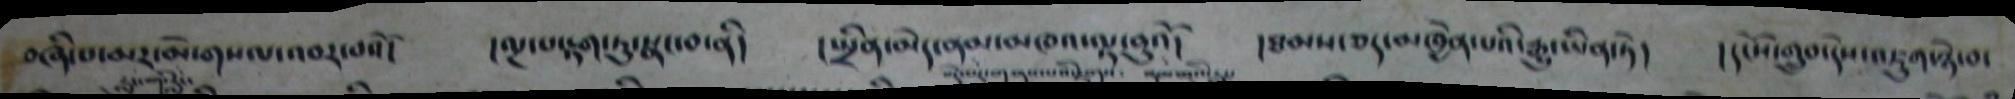བཞི་པ་མར་མེ་གསལ་འབར་པའོ།    །ལྔ་པ་རྟག་ཏུ་སྣང་བ་ནི།    ། སྤྱིན་མེད་ནམ་མཁའ་ལྟ་བུའོ།   ། ཐམས་ཅད་མཁྱེན་པའི་རྒྱུ་ཡིན་ཏེ།   ། དངོས་གྲུབ་དེས་འཇུག་ཉེ་བ་
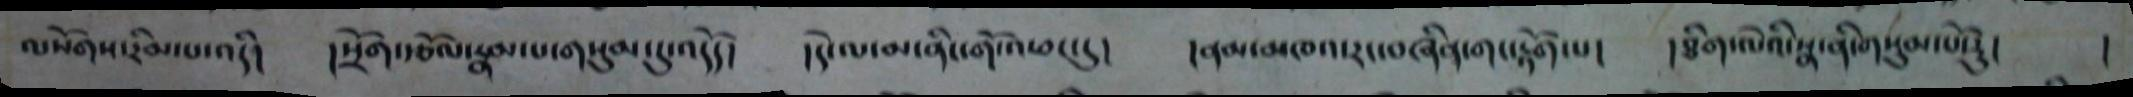ལསོགས་རིམ་པ་འདི། །སྲོག་རྩོལ་རྣམ་པ་གསུམ་དུ་འདོད། །དེ་ལ་མ་ནིང་གོ་འཕང་དུ། །ནམ་མཁའ་རང་བཞིན་གང་རྟོག་པ། །ཐིག་ལེའི་སྣ་ནི་གསུམ་པོ་རུ། །
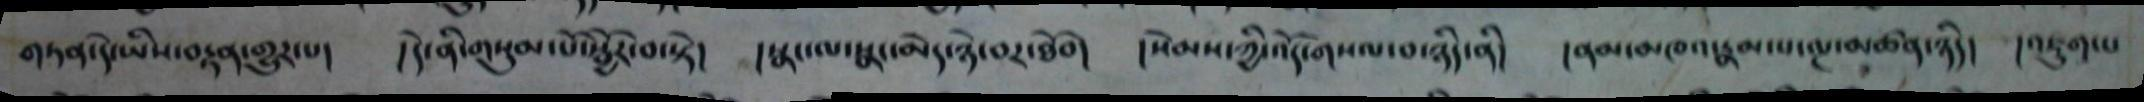གཏན་དེ་ཡིས་བརྟན་གྱུར་པ། །དེ་ནི་གསུམ་པོ་སྦྱོར་བ་སྟེ། །སྣང་ལ་སྣང་མེད་ཉེ་བར་ཐོབ། །སེམས་ཀྱི་འོད་གསལ་བ་ཉིད་ནི། །ནམ་མཁའ་རྣམ་པ་ལྔ་མཚན་ཉིད། །འཇུག་པ
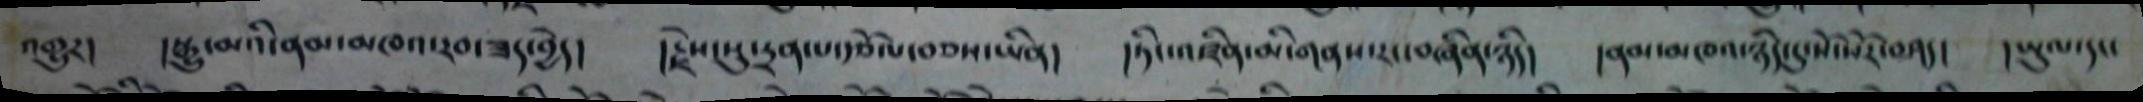འགྱུར། །སྒྱུ་མའི་ནམ་མཁའ་རབ་ཟད་བྱེད། །རྗེས་སུ་དྲན་པ་རྩོལ་བཅས་ཡིན། །ཏིང་འཛིན་མི་གནས་རང་བཞིན་ཉིད། །ནམ་མཁའ་ཉིད་དུ་སོ་སོར་བཤད། །ཡུལ་དང་
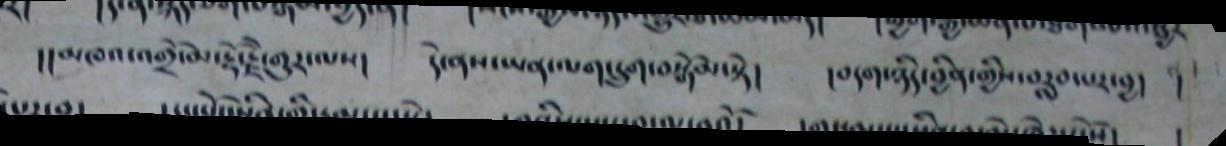།།  མཁཌྷ་འགྲོ་མ་རྡོ་རྗེ་གུར་ལས།    དེ་ནས་ཡན་ལག་དྲུག་བསྒོམ་སྟེ།  །  བདག་ཉིད་བྱིན་གྱིས་བརླབ་པར་བྱ།  །
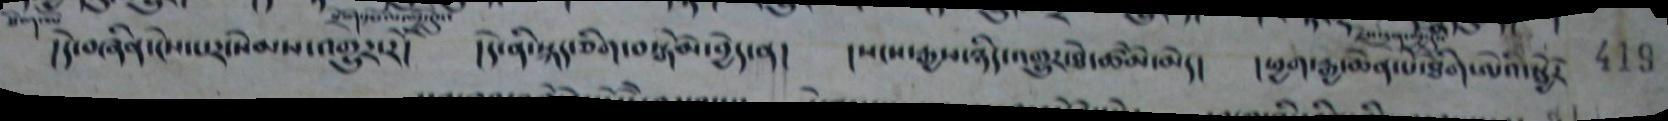།དེ་བཞིན་ངེས་པར་སེམས་འགྱུར་རོ།   ། དེ་ནི་སྐད་ཅིག་བསྒོམ་བྱེད་ན།  །  སངས་རྒྱས་ཉིད་འགྱུར་ཐེ་ཚོམ་མེད།  ། ཕྱག་རྒྱ་ཆེན་པོ་ཐིག་ལེའི་སྦྱོར
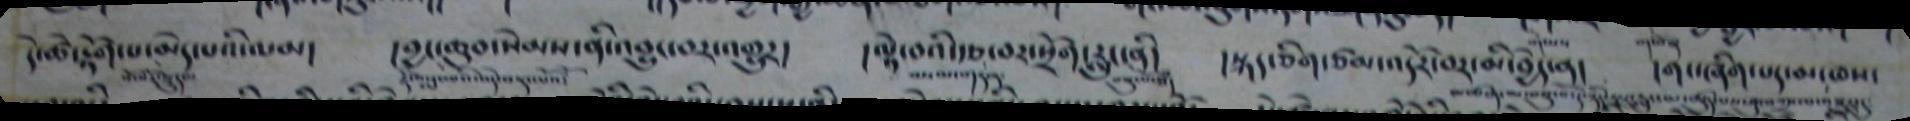དེ་ཞི་རྟོག་པ་མེད་པའི་ལམ།     ། བྱང་ཆུབ་སེམས་ནི་འབྱུང་བར་འགྱུར།   ། ལྟེ་བའི་རྩ་བར་སྲོག་རླུང་ནི།    ། སྐད་ཅིག་ཙམ་འདོར་བར་མི་བྱེད་ན།   ། གང་ཞིག་པད་མ་ཁས་
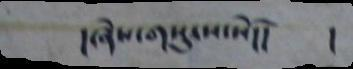།ཞེས་གསུངས་སོ།། །
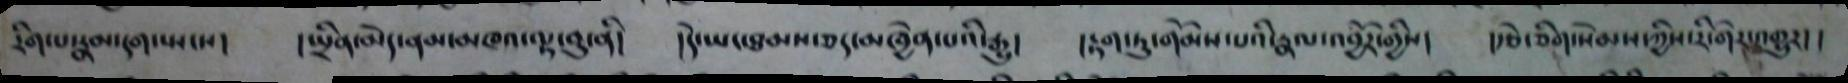རིག་པ་རྣམ་དག་སྤངས། །སྤྲིན་མེད་ནམ་མཁའ་ལྟ་བུ་ནི། །དེ་ཡང་ཐམས་ཅད་མཁྱེན་པའི་རྒྱུ། །རྟག་ཏུ་གོམས་པའི་རྣལ་འབྱོར་གྱིས། །རྩེ་ཅིག་སེམས་ཀྱིས་རི་གེར་འགྱུར།།
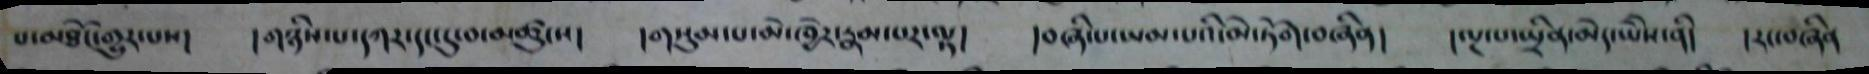པ་མཐོང་གྱུར་པས། །གཉིས་པ་དཀར་དང་དུ་བ་མཚུངས། །གསུམ་པ་མེ་ཁྱེར་རྣམ་པར་ལྟ། །བཞི་པ་ཡམ་པའི་མེ་ཏོག་བཞིན། །ལྔ་པ་སྤྲིན་མེད་ཡཻས་ནི། །རང་བཞིན
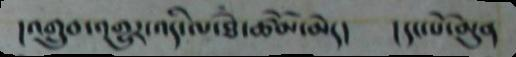།འགྲུབ་འགྱུར་འདི་ལ་ཐེ་ཚོམ་མེད། །དང་པོ་མུན
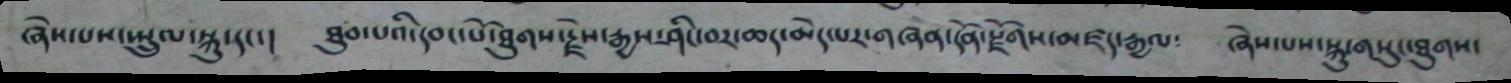ཞེས་པས་སྤྲུལ་སྐུ་དང་། ཐུབ་པའུ་དབང་པོ་ཐུགས་རྗེས་རྒྱས་ཤིང་བར་ཆད་མེད་པར་གཞན་དོན་སྫོགས་མཛད་རྒྱལ༴ ཞེས་པས་སྐུ་གསུང་ཐུགས་
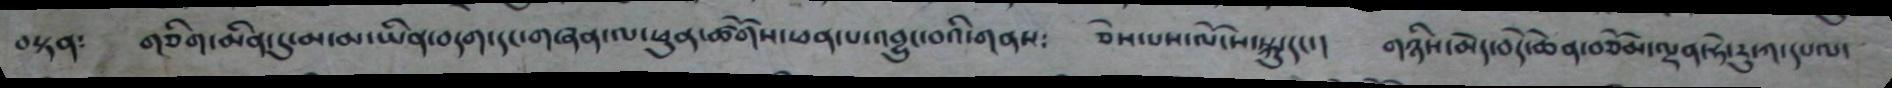བསྟན༴ གཅིག་མིན་དུ་མ་མ་ཡིན་བདག་དང་གཞན་ལ་ཕུན་ཚོགས་ཕན་པ་འབྱུང་བའི་གནས༴ ཅེས་པས་ལོངས་སྐུ་དང་། གཉིས་མེད་བདེ་ཆེན་བཅོམ་ལྡན་ཧེ་རུ་ཀ་དཔལ་
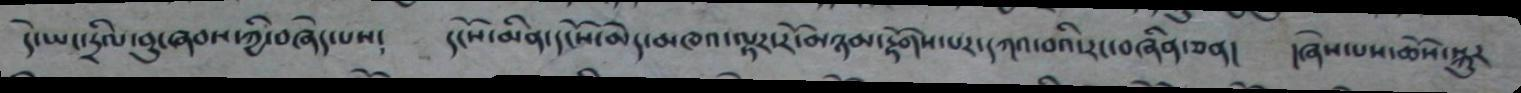དེ་ཡང་དྲིལ་བུ་ཞབས་ཀྱི་བཞེད་པས༴ དངོས་མིན་དངོས་མེད་མཁའ་ལྟར་རོ་མཉམ་རྟོགས་པར་དཀའ་བའི་རང་བཞིན་ཅན། །ཞེས་པས་ཆོས་སྐུར
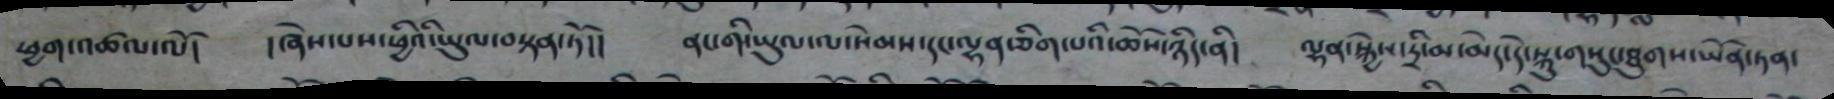ཕྱག་འཚལ་ལོ། །ཞེས་པས་ཕྱིའི་ཡུལ་བསྟན་ཏོ།། ནང་གི་ཡུལ་ལ་སེམས་དང་ལྷན་ཅིག་པའི་ཆོས་ཉིད་ནི། ལྷན་སྐྱེས་དྲི་མ་མེད་དེ་སྐུ་གསུང་ཐུགས་ཡོན་ཏན་
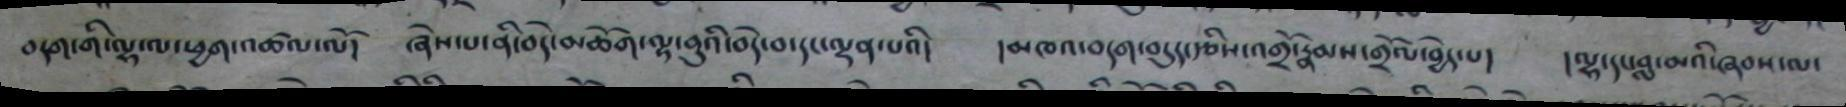བདག་གི་ལྷ་ལ་ཕྱག་འཚལ་ལོ། ཞེས་པ་ནི་བདེ་མཆོག་ལྟ་བུའི་བདེ་བ་དང་ལྡན་པའི། །མཁའ་བདག་བདུད་རྩིས་འགྲོ་རྣམས་གྲོལ་བྱེད་པ། །ལྷ་དང་བླ་མའི་ཞབས་ལ་
